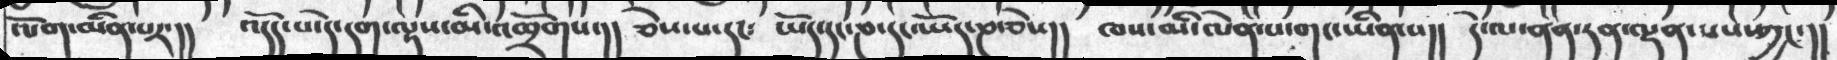ལོག་མིན་པར་།།  འདོད་པ་དེ་དག་ལྟས་མི་ཕྲོགས་།།  ཅེས་པ་དང༴  ཡོད་དང་ཎ་དང་ཡོད་ཎ་ཅེས།།  ཁས་མི་ལེན་པ་གང་ཡིན་པ།།  དེ་ལ་ནན་དན་ལྡན་པས་ཀྱང་།།
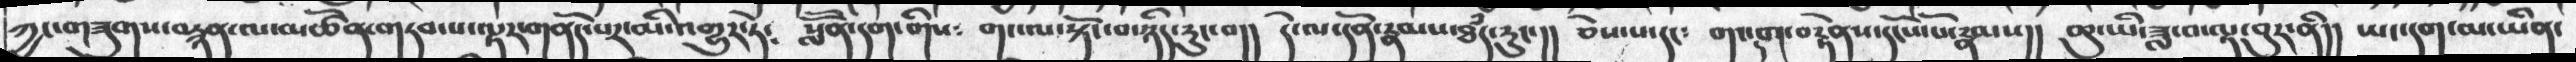ཀྱང་གཟུགས་བརྙན་ལ་མཚོན་གཏབ་པ་ལྟར་གནོད་པར་མི་འགྱུར་ཏེ༴   སློོན་དག་གིས༴   གང་ལ་སྟོང་བ་ཉིད་རུང་བ།།  དེ་ལ་དོན་རྣམས་ཐཾད་རུང་།།   ཅེས་པ་དང༴   གང་དག་བརྟེནས་དངོས་པོ་རྣམས།།  ཆུ་ཡི་ཟླ་བ་ལྟ་བུར་ནི།།  ཡང་དག་མ་ཡིན་
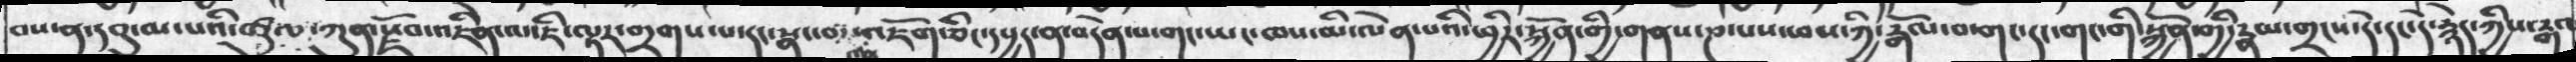བས་ན་དབུ་མ་་པའི་ཚུལ་ཀུན་རྫོབ་འཇིེན་ལ་ཇི་ལྟར་གྲགས་པ་རང་སྣང་ལ་འཇོག་ཅིང་དཔྱད་ན་བདེན་པ་གང་ཡང་ཁས་མི་ལེན་པའི་ཕྱིར་སྐྱོན་གྱི་གནས་ཎ་པས་ཕས་ཀྱི་རྒོལ་བ་གང་དང་གང་གི་སྐྱོན་གྱི་རྣམ་གྲངས་དེ་དང་དེ་རྙེད་ཀྱིས་རྒལ
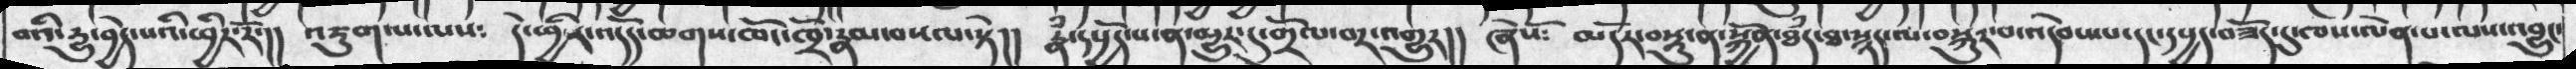བའི་རྱུ་བྱེད་པའི་ཕྱིར་རོ་།།  འཇུག་པ་ལས༴  དེ་ཕྱིར་འདོད་ཆགས་ཁོང་ཁྲོ་རྣམ་བསལ་སྟེ།།  རྣཾ་དཔྱོད་པ་ན་མྱུར་དུ་གྲོལ་བར་འགྱུར།།  ཞེསོ༴  མདོར་བསྡུ་ན་སྐྱེན་ཐཾད་ཐ་སྙད་ལ་བསྐུར་བ་འདེབས་པ་དང་དཔྱད་བཟོད་དུ་ཁས་ལེན་པ་ལས་འབྱུང་
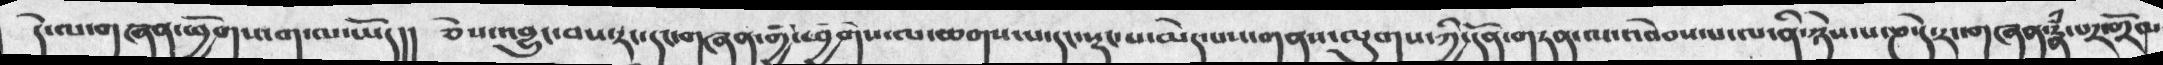དེ་ལ་གཞན་ཕྱོགས་ག་ལ་ཡོད།།   ཅེས་འབྱུང་བས་རང་དང་གཞན་གྱི་ཕྱོགས་ལ་ཆགས་པ་དང་སྡང་པ་མེད་པས་གནས་ལུགས་ཀྱི་དོན་གཏན་ལ་འབེབས་པ་ལ་ནི་ཉེས་པ་ཎ་དེ་རང་གཞན་རྣཾ་པར་གྲོལ
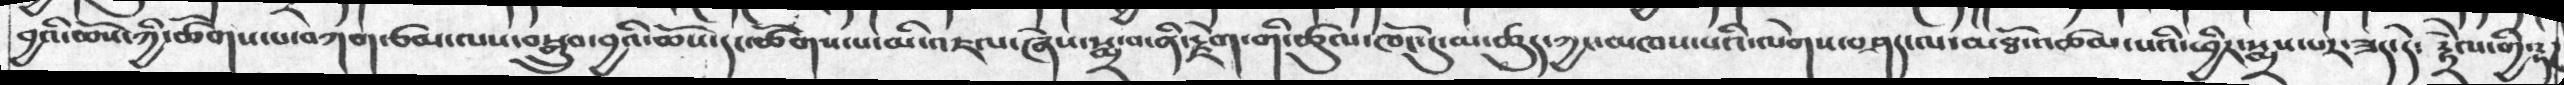བྱའི་ཆོས་ཀྱི་ཚོགས་པ་བཀག་ཙམ་ལས་བསྒྲུབ་བྱའི་ཆོས་དང་ཚོགས་པ་མི་འཇལ་ཞེས་སྨྲ་བ་ནི་རྗེག་གི་ཚུལ་ཁོང་དུ་མ་ཚུད་ཀྱང་མཁས་པའི་ལེགས་བཤད་ལ་མཐོ་འཚམ་པའི་ཕྱིར་སྨྲས་པར་ཟད་དེ༴  རྲཻལ་གྱི་རྟ
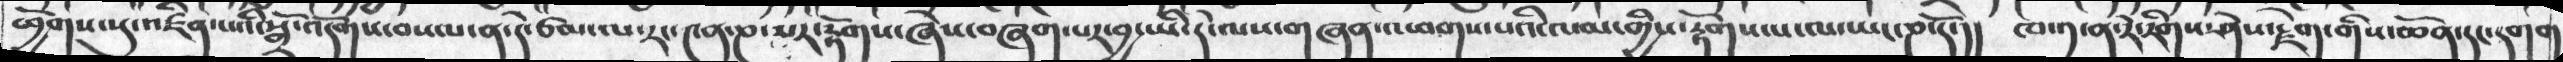ཕྱོགས་སུ་འཛིན་པའི་སྒྲོ་འདོགས་བསལ་ན་དེ་ཙམ་ལ་རང་༤ན་ཎ་པར་རྟོགས་ཞེས་བཞག་པར་བྱ་ཡི་དེ་ལས་གཞན་འཕགས་པའི་ལམ་གྱིས་རྟོགས་པ་ལ་ཡང་ཎ་དོ་།།  ཁ་༡་ན་རེ་རིགས་ཤེས་རེག་གིས་ཆོན་དང་དགག
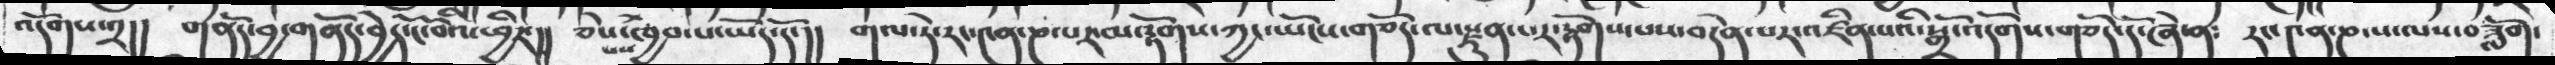འདོགས་༢།།  གནོད་བྱ་གནོད་བྱེད་ངོ་བོའི་ཕྱིར་།།   ཅེས་པས་ཁྱབ་པ་ཡོད་དོ་།།  གལ་ཏེ་རང་༤ན་ཎ་པར་མ་རྟོགས་ཀྱང་ཡོངས་གཅོད་ལ་རྫུན་པར་རྟོགས་པས་བདེན་པར་འཛིན་པའི་སྒྲོ་འདོགས་གཅོད་དོ་ཞེ་ན༴   རང་༤ན་ཎ་པ་ལས་བཟློག་
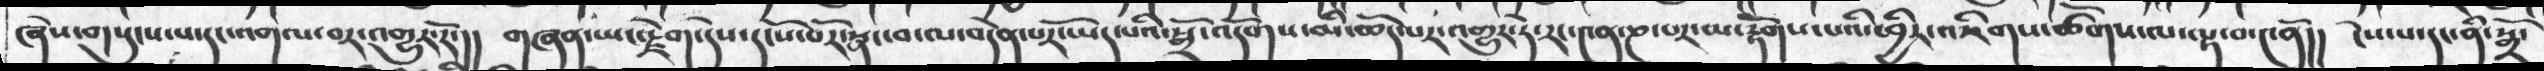ཞེས་གསུངས་པ་དང་འགལ་བར་འགྱུར་རོ་།།  གཞན་ཡང་རྗེག་དེས་དངོས་པོར་སྣང་བ་ལ་བདེན་པར་ཡོད་པའི་སྒྲོ་འདོགས་མི་ཆོད་པར་འགྱུར་དེ་རང་༤ན་ཎ་པར་མ་རྟོགས་པའི་ཕྱིར་འཇིགས་ཚགས་ལ་ལྟ་བནོ།།  ངེས་པ་དང་ནི་སྒྲོ་་༤
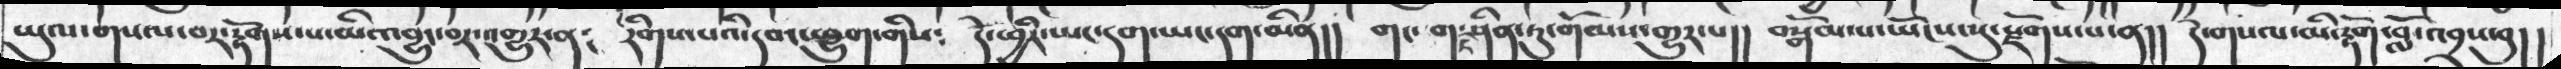ཡུལ་གསལ་བར་རྟོགས་པ་མི་འབྱུང་བར་འགྱུར་ན༴  རིགས་པའི་དབང་ཕྱུག་གིས༴  དེ་ཕྱིར་ཡང་དག་མིན།།  གང་གང་ཤིན་ཏུ་གོམས་འགྱུར་པ།།  བསྒོམ་པ་ཡོངས་སུ་རྫོགས་པ་ན།།  དེ་གསལ་མི་རྟོག་བློ་འབྲས་བུ།།
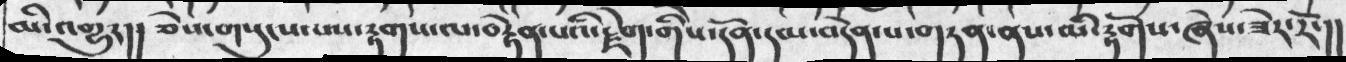མི་འགྱུར།།  ཅེས་གསུངས་པས་རྟགས་ལ་བརྟེན་པའི་རྗེག་གིས་དོན་དམ་བདེན་པ་གཏན་ནས་མི་རྟོགས་ཞེས་ཟེར་རོ་།།
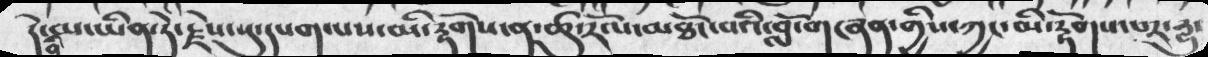དེ་ནི་མ་ཡིན་ཏེ་རྗེས་སུ་དཔག་པས་མི་རྟོགས་ན་ཚུ་རོལ་མཐོང་བའི་བློ་གཞན་གྱིས་ཀྱང་མི་རྟོགས་པར་དྱུ་
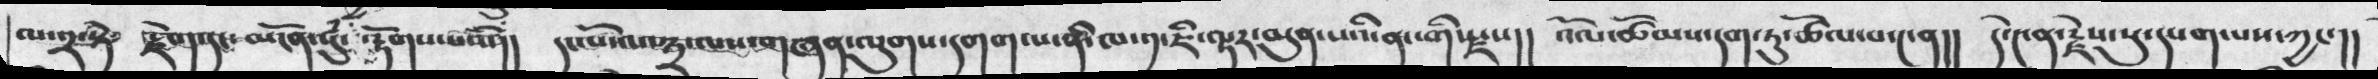ལ་༢་སྟེ་  རྗེག་དང་ མངོན་སུྃ་ རྟོགས་པའི་།།  དང་པོ་ལ་༣་ལས་གཞན་ལུགས་དགག་པ་ནི་ཁ་༡་ཇི་ལྟར་མུན་པའི་ནང་གི་རྫས།།   འོལ་ཚོམས་དག་ཏུ་ཚོལ་བ་༤ན།།   དེ་༤ན་རྗེས་སུ་དཔག་པས་ཀྱང་།།
